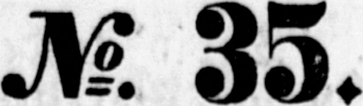No. - 35.
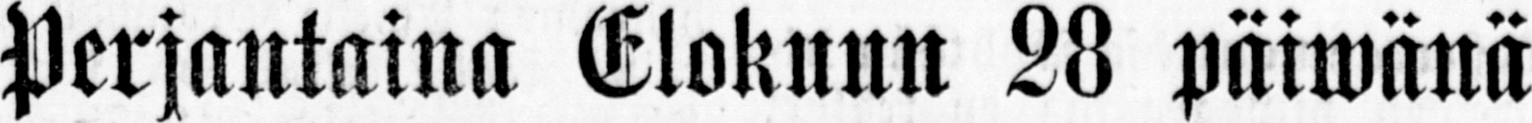Perjantaina Elokuun 28 Päiwänä
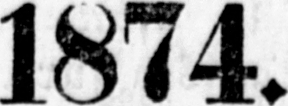1874.
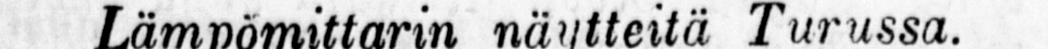Lämpömittarin näytteitä Turussa.
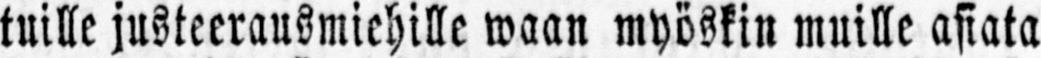tuille justeerausmiehille waan myöskin muille asiata
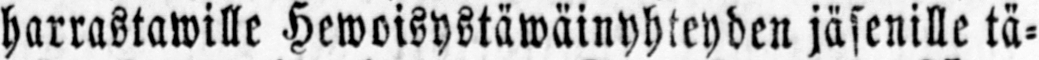harrastawille Hewoisystäwäinyhteyden jäsenille tä-
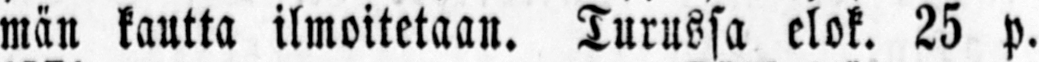män kautta ilmoitetaan. Turussa elok. 25 p.
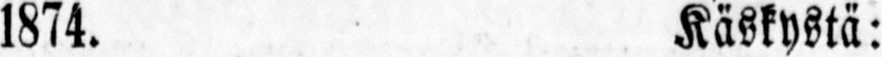1874. Käskystä:
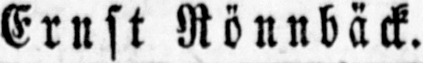Ernst Rönnbäck.
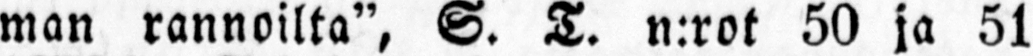man rannoilta", S. T. n.rot 50 ja 51
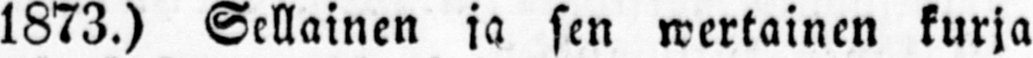1873.) Sellainen ja sen wertainen kurja
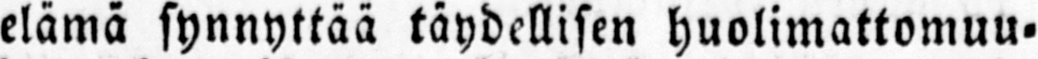elämä synnyttää täydellisen huolimattomuu-
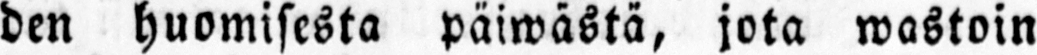den huomisesta päiwästä, jota wastoin
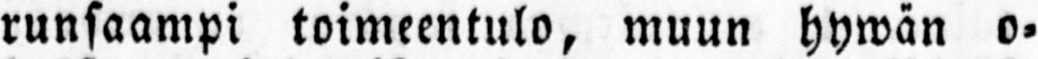runsaampi toimeentulo, muun hywän o-
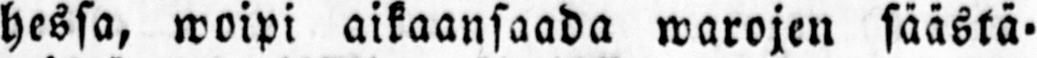hessa, woipi aikaansaada warojen säästä-
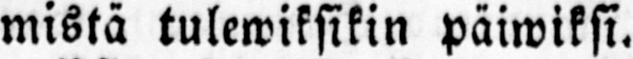mistä tulewiksikin päiwiksi.
